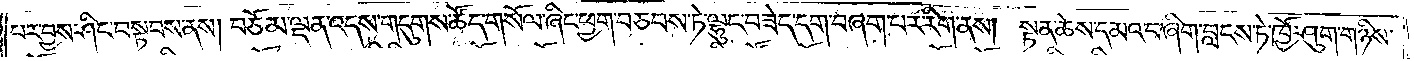པར་བྱས་ཤིང་བསྟབས་ནས། བཅོམ་ལྡན་འདས་གདུགས་ཚོད་གསོལ་ཞིང་ཕྱག་བཅབས་ཏེ་ལྷུང་བཟེད་དག་བཞག་པར་རིག་ནས། སྟན་ཆེས་དམའ་བ་ཞིག་བླངས་ཏེ་ཁྱོ་ཤུག་གཉིས་
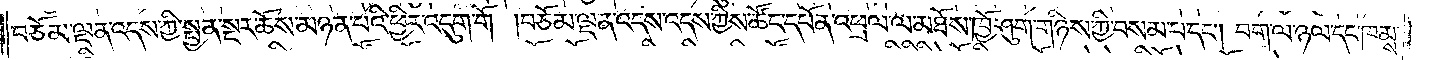བཅོམ་ལྡན་འདས་ཀྱི་སྤྱན་སྔར་ཆོས་མཉན་པའི་ཕྱིར་འདུག་གོ །བཅོམ་ལྡན་འདས་འདས་ཀྱིས་ཚོང་དཔོན་འཕྲལ་ལ་མཐོས་ཁྱོ་ཤུག་གཉིས་ཀྱི་བསམ་པ་དང༌། བག་ལ་ཉལ་དང་ཁམས་
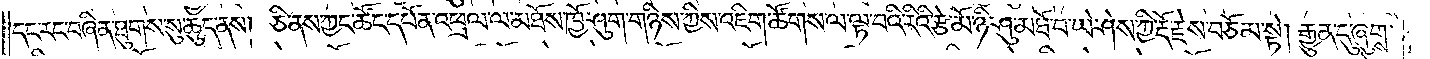དང་རང་བཞིན་ཐུགས་སུ་ཆུད་ནས། ཅི་ནས་ཀྱང་ཚོང་དཔོན་འཕྲལ་ལ་མཐོས་ཁྱོ་ཤུག་གཉིས་ཀྱིས་འཇིག་ཚོགས་ལ་ལྟ་བའི་རིའི་རྩེ་མོ་ཉི་ཤུ་མཐོ་བ་ཡེ་ཤེས་ཀྱི་རྡོ་རྗེས་བཅོམ་སྟེ། རྒྱུན་དུ་ཞུགས་
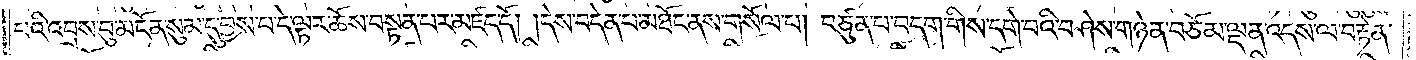པའི་འབྲས་བུ་མངོན་སུམ་དུ་བྱས་པ་དེ་ལྟར་ཆོས་བསྟན་པར་མཛད་དོ། །དེས་བདེན་པ་མཐོང་ནས་གསོལ་པ། བཙུན་པ་བདག་གིས་དགེ་བའི་བཤེས་གཉེན་བཅོམ་ལྡན་འདས་ལ་བརྟེན་
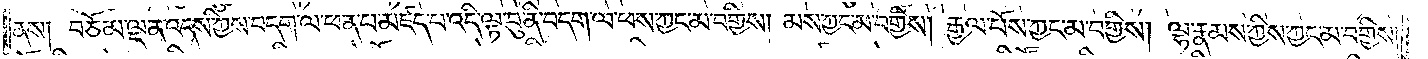ནས། བཅོམ་ལྡན་འདས་ཀྱིས་བདག་ལ་ཕན་པ་མཛད་པ་འདི་ལྟ་བུ་ནི་བདག་ལ་ཕས་ཀྱང་མ་བགྱིས། མས་ཀྱང་མ་བགྱིས། རྒྱལ་པོས་ཀྱང་མ་བགྱིས། ལྷ་རྣམས་ཀྱིས་ཀྱང་མ་བགྱིས།
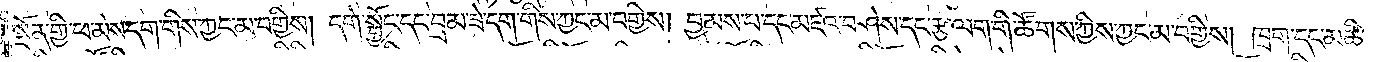སྔོན་གྱི་ཕ་མེས་དག་གིས་ཀྱང་མ་བགྱིས། དགེ་སྦྱོང་དང་བྲམ་ཟེ་དག་གིས་ཀྱང་མ་བགྱིས། བྱམས་པ་དང་མཛའ་བཤེས་དང་རྩ་ལག་གི་ཚོགས་ཀྱིས་ཀྱང་མ་བགྱིས། ཁྲག་དང་མཆི་
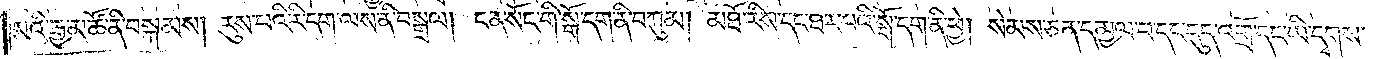མའི་རྒྱ་མཚོ་ནི་བསྐམས། རུས་པའི་རི་དག་ལས་ནི་བསྒྲལ། ངན་སོང་གི་སྒོ་དག་ནི་བཀུམ། མཐོ་རིས་དང་ཐར་པའི་སྒོ་དག་ནི་ཕྱེ། སེམས་ཅན་དམྱལ་བ་དང་དུད་འགྲོ་དང་ཡི་དྭགས་
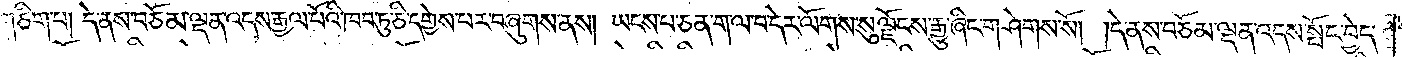གཅིག་པ། དེ་ནས་བཅོམ་ལྡན་འདས་རྒྱལ་པོའི་ཁབ་ཏུ་ཅི་དགྱེས་པར་བཞུགས་ནས། ཡངས་པ་ཅན་ག་ལ་བ་དེར་ལོགས་སུ་ལྗོངས་རྒྱུ་ཞིང་གཤེགས་སོ། །དེ་ནས་བཅོམ་ལྡན་འདས་སྤོང་བྱེད་
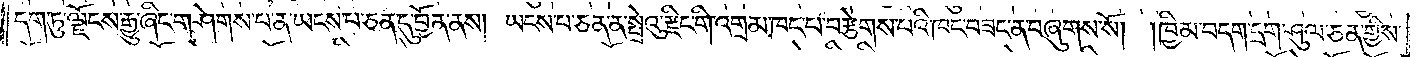དག་ཏུ་ལྗོངས་རྒྱུ་ཞིང་གཤེགས་པ་ན་ཡངས་པ་ཅན་དུ་བྱོན་ནས། ཡངས་པ་ཅན་ན་སྤྲེའུ་རྫིང་གི་འགྲམ་ཁང་པ་བརྩེགས་པའི་ཁང་བཟང་ན་བཞུགས་སོ། །ཁྱིམ་བདག་དྲག་ཤུལ་ཅན་གྱིས་
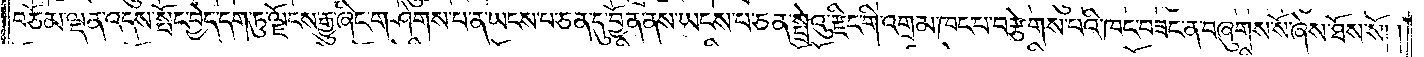བཅོམ་ལྡན་འདས་སྤོང་བྱེད་དག་ཏུ་ལྗོངས་རྒྱུ་ཞིང་གཤེགས་པ་ན་ཡངས་པ་ཅན་དུ་བྱོན་ནས་ཡངས་པ་ཅན་སྤྲེའུ་རྫིང་གི་འགྲམ་ཁང་པ་བརྩེགས་པའི་ཁང་བཟང་ན་བཞུགས་སོ་ཞེས་ཐོས་སོ། །
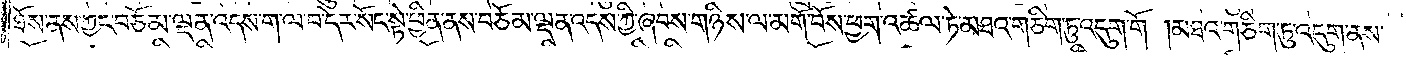ཐོས་ནས་ཀྱང་བཅོམ་ལྡན་འདས་ག་ལ་བ་དེར་སོང་སྟེ་ཕྱིན་ནས་བཅོམ་ལྡན་འདས་ཀྱི་ཞབས་གཉིས་ལ་མགོ་བོས་ཕྱག་འཚལ་ཏེ་མཐའ་གཅིག་ཏུ་འདུག་གོ །མཐའ་གཅིག་ཏུ་འདུག་ནས་
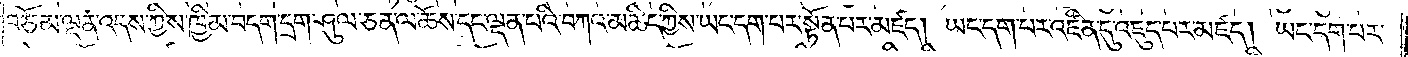བཅོམ་ལྡན་འདས་ཀྱིས་ཁྱིམ་བདག་དྲག་ཤུལ་ཅན་ལ་ཆོས་དང་ལྡན་པའི་བཀའ་མཆིད་ཀྱིས་ཡང་དག་པར་སྟོན་པར་མཛད། ཡང་དག་པར་འཛིན་དུ་འཇུད་པར་མཛད། ཡང་དག་པར་
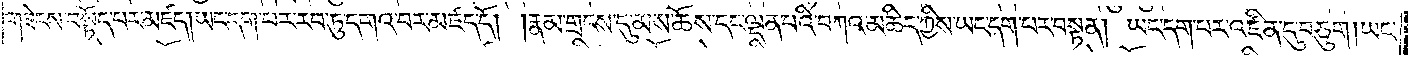གཟེངས་བསྟོད་པར་མཛད། ཡང་དག་པར་རབ་ཏུ་དགའ་བར་མཛད་དོ། །རྣམ་གྲངས་དུ་མས་ཆོས་དང་ལྡན་པའི་བཀའ་མཆིད་ཀྱིས་ཡང་དག་པར་བསྟན། ཡང་དག་པར་འཛིན་དུ་བཅུག །ཡང་
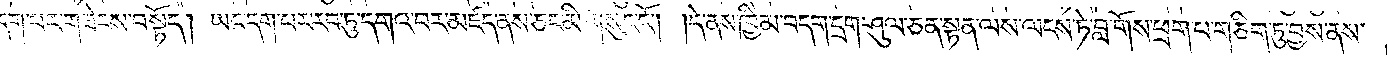དག་པར་གཟེངས་བསྟོད། ཡང་དག་པར་རབ་ཏུ་དགའ་བར་མཛད་ནས་ཅང་མི་གསུང་ངོ༌། །དེ་ནས་ཁྱིམ་བདག་དྲག་ཤུལ་ཅན་སྟན་ལས་ལངས་ཏེ་བླ་གོས་ཕྲག་པ་གཅིག་ཏུ་བྱས་ནས་
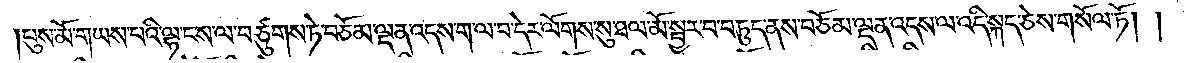པུས་མོ་གཡས་པའི་ལྷ་ང་ས་ལ་བཙུགས་ཏེ་བཅོམ་ལྡན་འདས་ག་ལ་བ་དེར་ལོགས་སུ་ཐལ་མོ་སྦྱར་བ་བཏུད་ནས་བཅོམ་ལྡན་འདས་ལ་འདི་སྐད་ཅེས་གསོལ་ཏོ། །
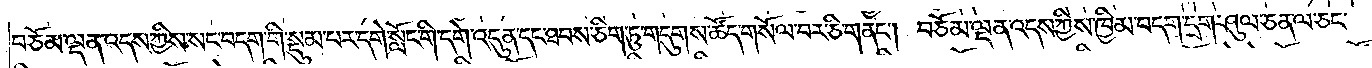བཅོམ་ལྡན་འདས་ཀྱིས་སང་བདག་གི་སྡུམ་པར་དགེ་སློང་གི་དགེ་འདུན་དང་ཐབས་ཅིག་ཏུ་གདུགས་ཚོད་གསོལ་བར་ཅི་གནང༌། བཅོམ་ལྡན་འདས་ཀྱིས་ཁྱིམ་བདག་དྲག་ཤུལ་ཅན་ལ་ཅང་
